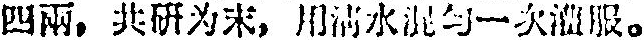四兩，共研为末，用清水混勻一次灌服。
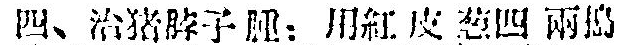四、治猪脖子腫：用紅皮葱四兩搗
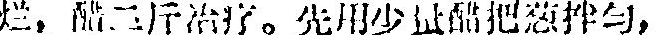烂，醋三斤治疗。先用少量醋把葱拌匀，
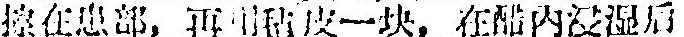擦在患部，再用毡皮一块，在醋內浸湿后
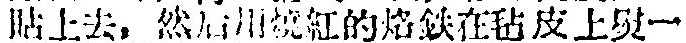貼上去，然后用燒紅的烙鉄在毡皮上熨一
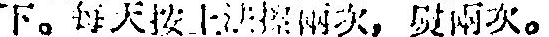下。每天按上法擦兩次，熨兩次。
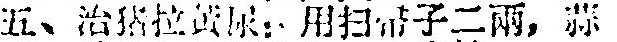五、治猪拉黄尿：用扫帚子二兩，蒜
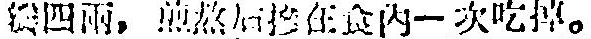瓣四兩，煎熬后掺在食內一次吃掉。
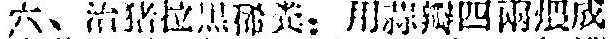六、治猪拉黑稀粪：用蒜瓣四兩煨成
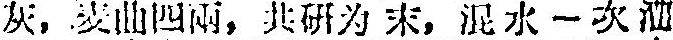灰，麦曲四兩，共研为末，混水一次灌
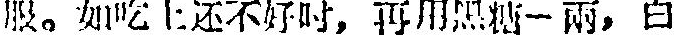服。如吃上还不好时，再用黑糖一兩，白
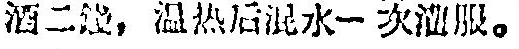酒二錢，温热后混水一次灌服。
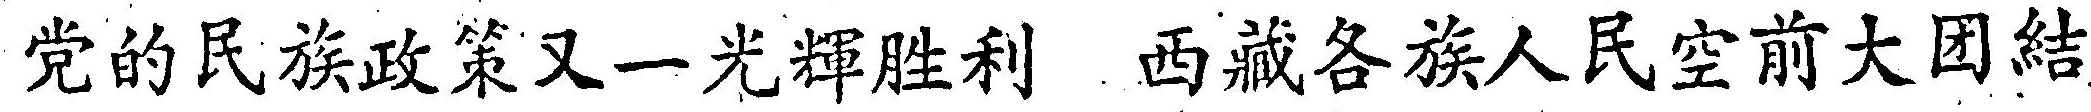党的民族政策又一光輝胜利 西藏各族人民空前大团結
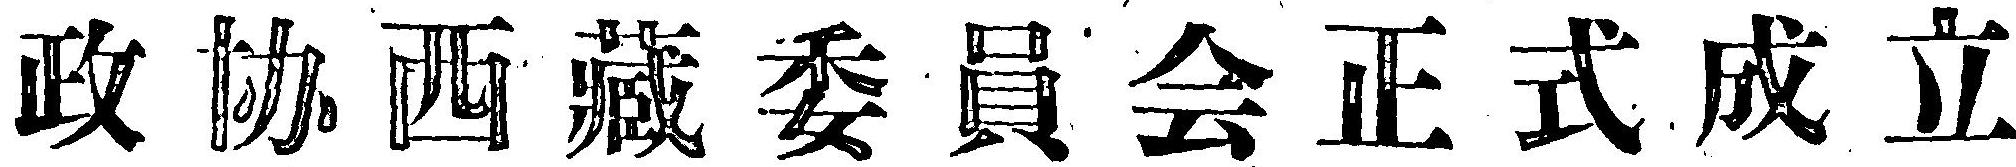政協西藏委員会正式成立
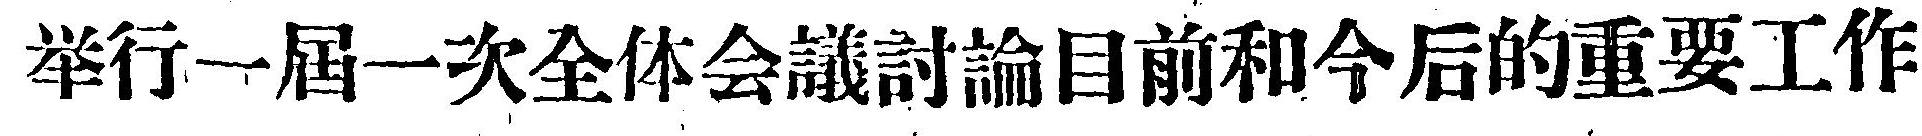举行一屆一次全体会議討論目前和今后的重要工作
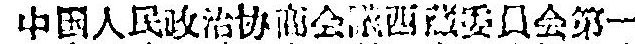中国人民政治协商会議西藏委員会第一
